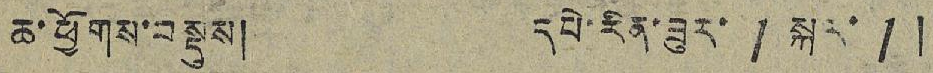ཆ་ཕྱོགས་བསྡུས། དཔེ་རིན་ཟུར་ 1 སྐར་ 1།
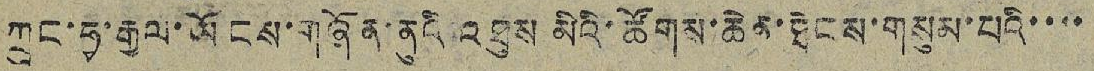ཀྲུང་ཧྭ་རྒྱལ་ཡོངས་གཞོན་ནུའི་འཐུས་མིའི་ཚོགས་ཆེན་ཐེངས་གསུམ་པའི་་་་
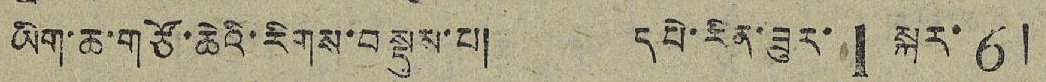ཡིག་ཆ་གཙོ་ཆེའི་རིགས་བསྡུས་པ། དཔེ་རིན་ཟུར་ 1 སྐར་ 6།
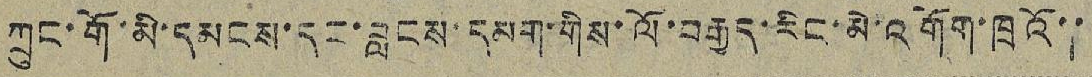ཀྲུང་གོ་མི་དམངས་དང་བླངས་དམག་གིས་ལོ་བརྒྱད་རིང་མེ་འགོག་ཁྲའོ་་
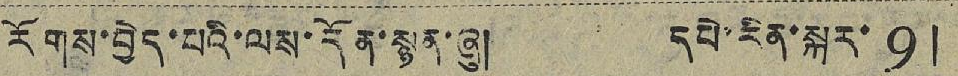རོགས་བྱེད་པའི་ལས་དོན་སྙན་ཞུ། དཔེ་རིན་སྐར་ 9།
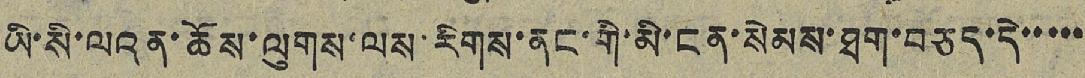ཡི་སི་ལའན་ཆོས་ལུགས་ལས་རིགས་ནང་གི་མི་ངན་སེམས་ཐག་བཅད་དེ་་་་་
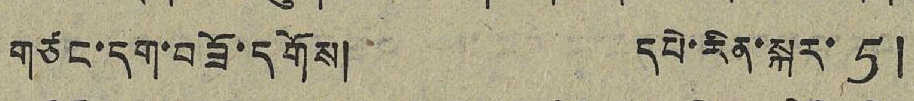གཙང་དག་བཟོ་དགོས། དཔེ་རིན་སྐར་ 5།
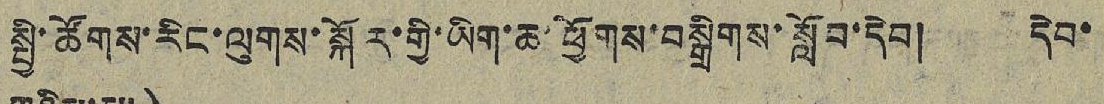སྤྱི་ཚོགས་རིང་ལུགས་སྐོར་གྱི་ཡིག་ཆ་ཕྱོགས་བསྒྲིགས་སློབ་དེབ། དེབ་
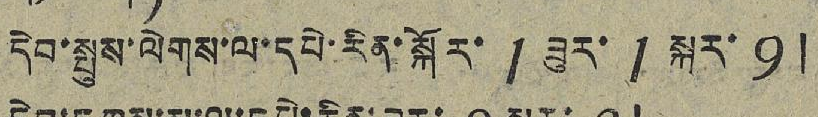དེབ་སྤུས་ལེགས་ལ་དཔེ་རིན་སྐོར་ 1 ཟུར་ 1 སྐར་ 9།
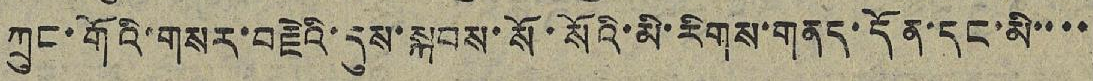ཀྲུང་གོའི་གསར་བརྗེའི་དུས་སྐབས་སོ་སོའི་མི་རིགས་གནད་དོན་དང་མི་་་་
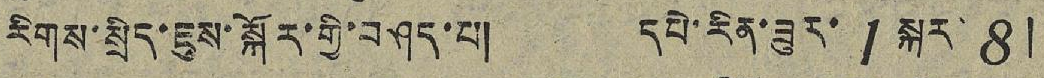རིགས་སྲིད་ཇུས་སྐོར་གྱི་བཤད་པ། དཔེ་རིན་ཟུར་ 1 སྐར་ 8།
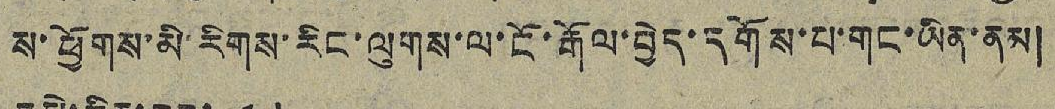ས་ཕྱོགས་མི་རིགས་རིང་ལུགས་ལ་ངོ་རྒོལ་བྱེད་དགོས་པ་གང་ཡིན་ནམ།
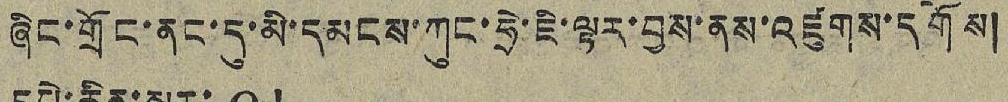ཞིང་གྲོང་ནང་དུ་མི་དམངས་ཀུང་ཧྲེ་ཇི་ལྟར་བྱས་ནས་འཛུགས་དགོས།
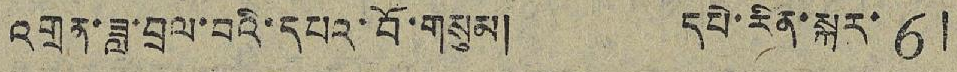འགྲན་ཟླ་བྲལ་བའི་དཔའ་བོ་གསུམ། དཔེ་རིན་སྐར་ 6།
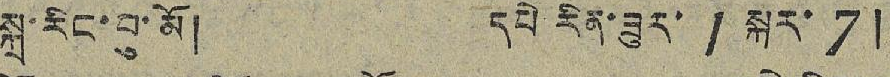སྐྲ་རིང་བུ་མོ། དཔེ་རིན་ཟུར་ 1 སྐར་ 7།
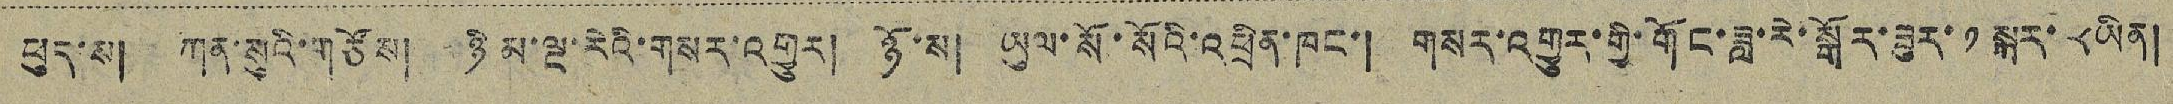ཕུད་ས། ཀན་སུའི་གཙོས། ཉི་མ་ལྔ་རེའི་གསར་འགྱུར། ཉོ་ས། ཡུལ་སོ་སོའི་འཕྲིན་ཁང་། གསར་འགྱུར་གྱི་གོང་ཟླ་རེ་སྒོར་ཟུར་ ༡ སྐར་ ༨ ཡིན།
